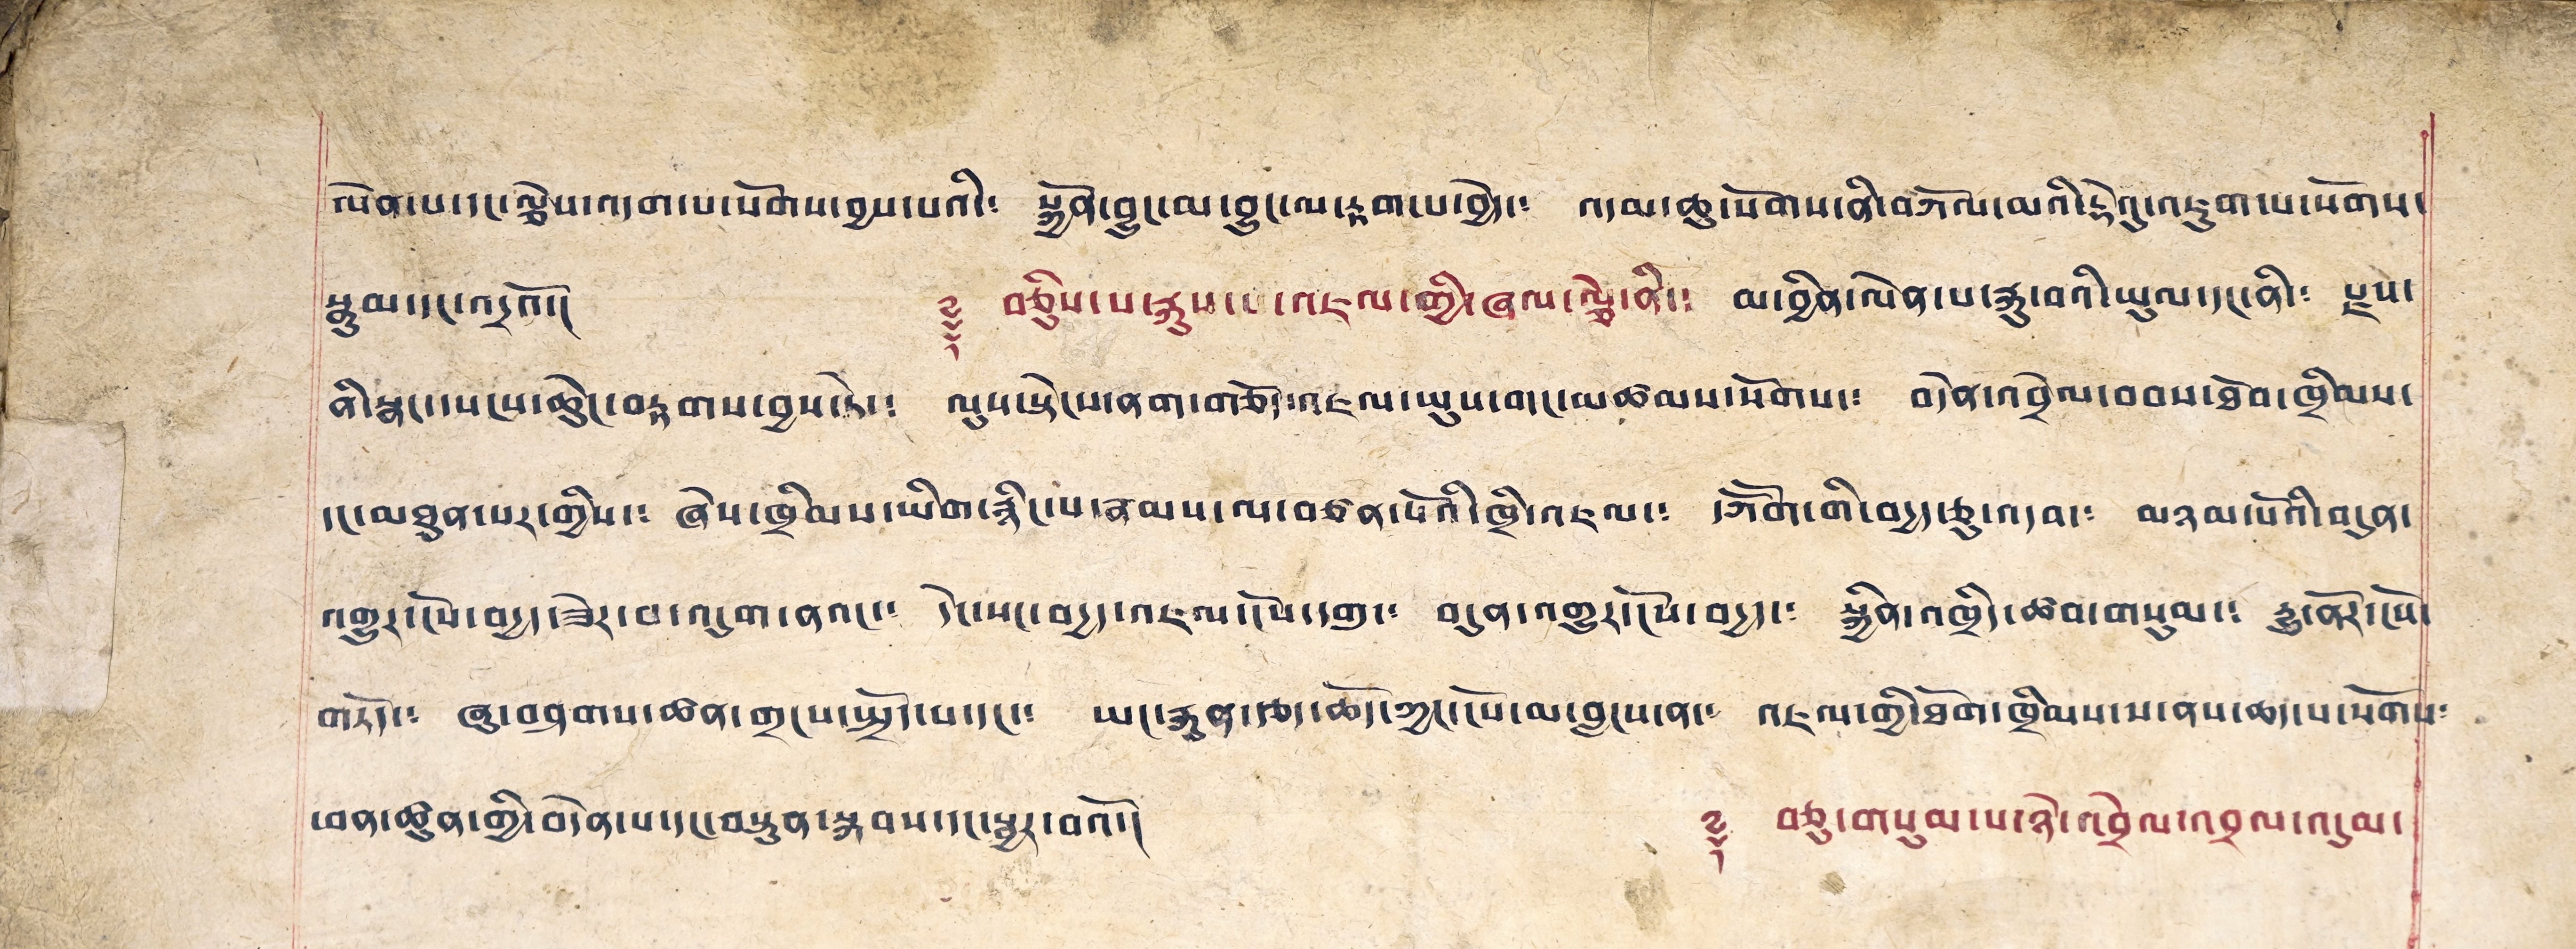ལེན་པ་དང་ལྕེས་འདག་པ་སོགས་བྱས་པའི་༴ སྐྱོན་བྱུང་མ་བྱང་ལ་རྟག་པ་བྱེད་༴ འདམ་ཆུ་སོགས་ནི་བཀོལ་མའི་རྡེའུ་འཇུག་ས་སོགས་
སྣུམ་དང་འདྲའོ།། ༈ བཅིུས་པ་རྐུས་པ་འཇལ་གྱི་ཞལ་ལྕེ་ནི་༴ མ་བྱིན་ལེན་པ་རྐུ་བའི་ཡུལ་དང་ནི་༴ རྗས་
ནི་སྣང་དཔངས་ཆེ་ཆུང་བརྟགས་བྱས་ཏེ་༴ ལུས་སྟེངས་ནག་གཅོད་འཇལ་ཡུས་གང་མཚམས་སོགས་༴ བདེན་འབྲེལ་བབས་ཐོབ་ཁྲིམས་
དང་མཐུན་པར་གྱིས་༴ ཞེས་ཁྲིམས་ཡིག་རྙིང་པ་རྣམས་ལ་བཙན་པོའི་ཁྲི་འཇལ་༴ དཀོན་མཆོག་གི་བདྱད་ཅུ་འདབ་༴ མཉམ་པོའི་བདུན་
འགྱུར་ངོས་བདྱད་ཟེར་བ་འདུག་ནའང་༴ དེང་སང་བདྱད་འཇལ་ངོས་དགུ་༴ བདུན་འགྱུར་ངོས་བདྱད་༴ སྐྱིན་འཁྲིད་ཚབ་གསུམ་༴ རྒྱུ་ནོར་ངོས་
གཏོད་༴ ཞུ་བཤགས་ཚན་གྲངས་སྤྲོད་པ་དང་༴ ཡང་རྐུན་རྩད་ཆོད་ཀྱང་ངོས་མ་བླངས་ན་༴ འཇལ་གྱི་ཐོག་ཁྲིམས་ས་ནས་ཆད་པ་སོགས༴
ཕན་ཚུན་གྱི་བདེན་པ་དང་བསྟུན་སྐབས་དང་སྦྱར་བའོ།། ༈ བཅུ་གསུམ་པ་ཉེ་འབྲེལ་འབྲལ་འདུམ་
